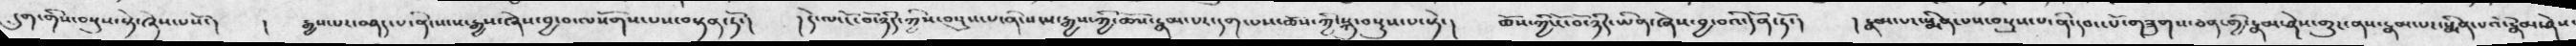དྲུག་གིས་བསྡུས་ཏེ་ཞེས་པསོ།  །  རྒྱས་པར་བཤད་པ་ནི་སངས་རྒྱས་ཞེས་བྱ་བ་ལསོགས་པས་བསྟན་ཏོ་།  །དེ་ལ་ངོ་བོ་ཉིད་ཀྱིས་བསྡུས་པ་ནི་སངས་རྒྱས་ཀྱི་ཆོས་རྣམ་པར་དག་པས་ཆོས་ཀྱི་སྐུ་བསྡུས་པ་སྟེ་།  ཆོས་ཀྱི་ངོ་བོ་ཉིད་ཡིན་ཞེས་བྱ་བའི་དོན་ཏོ་།   །རྣམ་པར་སྨིན་པས་བསྡུས་པ་ནི་དབང་པོ་གཟུགས་ཅན་གྱི་རྣམ་ཤེས་གྱུར་ནས་རྣམ་པར་སྨིན་པའི་རྣམ་ཤེས་
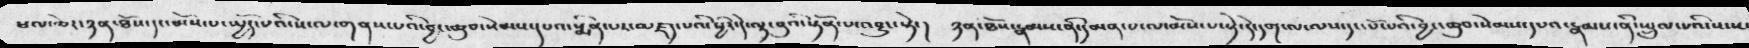ཕལ་ཆེར་ཉན་ཐོས་དང་མོས་པ་སྤྱོད་པའི་ས་ལ་གནས་པའི་བྱང་ཆུབ་སེམས་དཔའ་སྨིན་པར་མཛད་པའི་ཕྱིར་དེ་ལྟ་བུའི་སྟོན་པ་འབྱུང་སྟེ་།  ཉན་ཐོས་རྣམས་ནི་དམན་པ་ལ་མོས་པ་སྟེ་དེ་དག་ལ་ལས་དང་པོ་པའི་བྱང་ཆུབ་སེམས་དཔའ་རྣམས་ནི་སྤྲུལ་པའི་སངས་
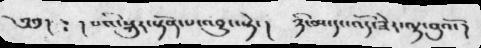༄༅།   ༴ ། པའི་སྐུར་སྟོན་པ་འབྱུང་སྟེ་།  ཉི་མ་དང་འོད་ཟེར་ལྟ་བུའོ་།
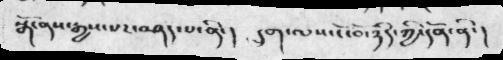སྒོ་ནས་རྒྱས་པར་བཤད་པ་ནི་།  དྲུག་ལས་ངོ་བོ་ཉིད་ཀྱི་དོན་ནི་།
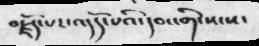བརྗོད་པར་འདོད་པའི་དབང་གི་སངས་
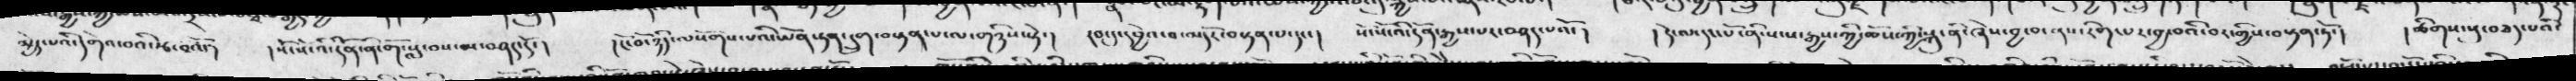མྱེད་པའི་དགེའ་བའི་རྩ་བའོ་།    ། སོ་སོ་འི་དོན་ནི་གོ་སླ་བས་མ་བཤད་དོ་།   ། ངོ་བོ་ཉིད་ལསོགས་པའི་ཡོན་ཏན་དྲུག་བསྟན་པ་ལ་གཉིས་སྟེ་།   རབ་དུ་དབྱེའ་བ་མདོར་བསྟན་པ་དང་།  སོ་སོ་འི་དོན་རྒྱས་པར་བཤད་པའོ་།   ། དེ་ལ་དང་པོ་ནི་སངས་རྒྱས་ཀྱི་ཆོས་ཀྱི་སྐུ་ནི་ཞེས་བྱ་བ་ནས་རིག་པར་གྱིས་བསྟན་ཏོ་།   །ཚིགས་སུ་བཅད་པའི་
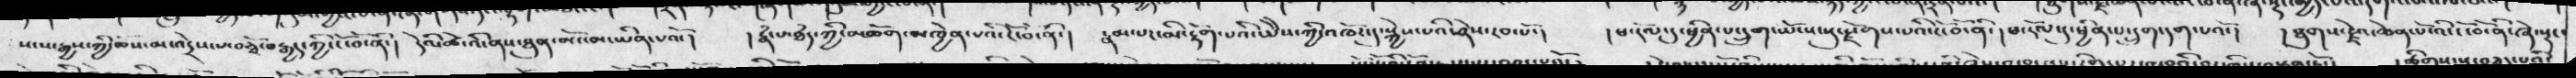སངས་རྒྱས་ཀྱི་ཆོས་མ་འདྲེས་པ་བཅྭོ་བརྒྱད་ཀྱི་ངོ་བོ་ནི་།   དེའི་ཚེ་འི་ནས་ཐུན་མོང་མ་ཡིན་པའོ་།   ། རྣཾ་པ་ཐཾད་ཀྱི་མཆོག་མཁྱེན་པའི་ངོ་བོ་ནི་།  རྣམ་པར་མི་རྟོག་པའི་ཡེེས་ཀྱི་འཁོར་དུ་སྐྱེས་པའི་ཤེས་རབ་པོ་།   ། ཕ་རོལ་དུ་ཕྱིན་པ་དྲུག་ཡོངས་སུ་རྫོགས་པའི་ངོ་བོ་ནི་།    ཕ་རོལ་དུ་ཕྱིན་པ་དྲུག་དག་པའོ་།   ། ཐུགས་རྗེའ་ཆེན་པོ་འི་ངོ་བོ་ནི་ཞེ་སྡང་
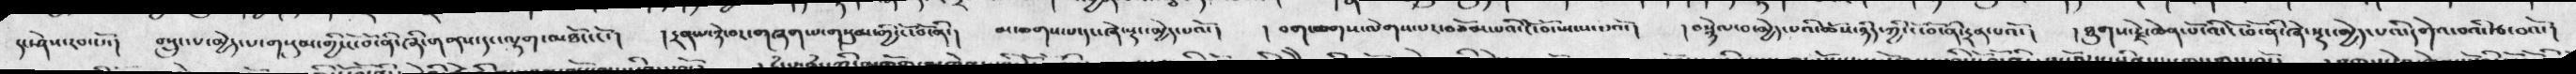དང་ཤེས་རབ་པོ་།   བསྲུང་པ་མྱེད་པ་གསུམ་གྱི་ངོ་བོ་ནི་ཞི་གནས་དང་ལྷག་མཐོང་ངོ་།    །དྲན་པ་ཉེ་བར་གཞག་པ་གསུམ་གྱི་ངོ་བོ་ནི་།   མ་ཆགས་པ་དང་ཞེ་སྡང་མྱེད་པའོ་།   ། བག་ཆགས་ལེགས་པར་བཅོམ་པའི་ངོ་བོ་སྤངས་པའོ་།   ། བསྙེལ་བ་མྱེད་པའི་ཆོས་ཉིད་ཀྱི་ངོ་བོ་ནི་དྲན་པའོ་།  ། ཐུགས་རྗེ་ཆེན་པོའི་ངོ་བོ་ནི་ཞེ་སྡང་མྱེད་པའི་དགེའ་བའི་རྩ་བའོ་།
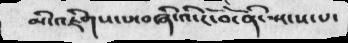མི་འཇིགས་པ་བཞི་འི་ངོ་བོ་ནི་སྤངས་པ་
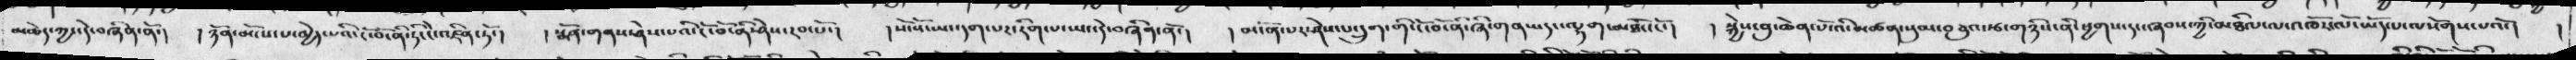མཆེད་ཀྱང་དེ་བཞིན་ནོ་།  །ཉོན་མོངས་པ་མྱེད་པའི་ངོ་བོ་ནི་ཏི་ངེ་འཛིན་ཏོ་།  །སྨོན་གནས་ཤེས་པའི་ངོ་བོ་ནི་ཤེས་རབ་པོ་།  །སོ་སོ་ཡང་དག་པར་རིག་པ་ཡང་དེ་བཞིན་ནོ་། །མངོན་པར་ཤེས་པ་དྲུག་གི་ངོ་བོ་ནི་གཞི་གནས་དང་ལྷག་མཐོང་ངོ་།  །སྐྱེས་བུ་ཆེན་པོ་འི་མཚན་སུམ་བཅུ་རྩ་གཉིས་ནི་ཕྱགས་དང་ཞབས་ཀྱི་མཐིལ་ལ་འཁོར་ལོ་ཡོད་པ་ལ་སོགས་པའོ་།  །
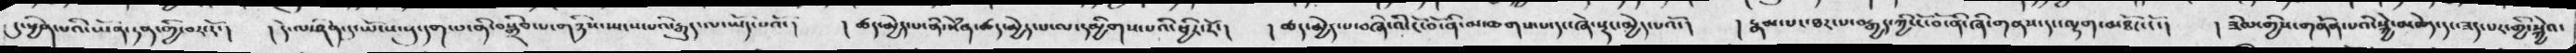དུ་ཕྱིན་པའི་ཡོན་ཏན་གྱི་བར་རོ་།  །དེ་ལ་ཤིན་དུ་ཡོངས་སུ་དག་པ་ནི་བསྒྲིབ་པ་གཉིས་སྤངས་པའི་རྒྱུད་ལ་ཡོད་པའོ་།  །ཚད་མྱེད་པ་ནི་སེཾན་ཚད་མྱེད་པ་ལ་དམྱིགས་པའི་ཕྱིར་རོ་།  །ཆད་མྱེད་པ་བཞི་འི་ངོ་བོ་བི་མ་ཆགས་པ་དང་ཞེ་སྡང་མྱེད་པའོ་།  །རྣམ་པར་ཐར་པ་བརྒྱད་ཀྱི་ངོ་བོ་ནི་ཞི་གནས་དང་ལྷག་མཐོང་ངོ་།  །ཟིལ་གྱིས་གནོན་པའི་སྐྱེ་མཆེད་དང་ཟད་པར་གྱི་སྐྱེའ་
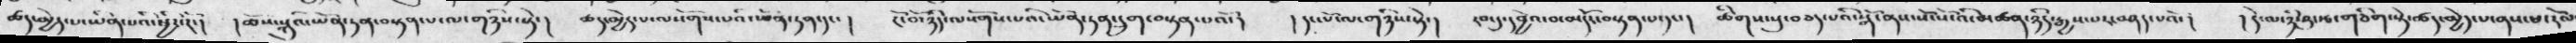ཚད་མྱེད་པ་ཡིན་པའི་ཕྱིར་རོ་།   །ཆོས་སྐུའི་ཡོན་ཏན་བསྟན་པ་ལ་གཉིས་སྟེ་།   ཚད་མྱེད་པ་ལསོགས་པའི་ཡོན་ཏན་དང་།   ངོ་བོ་ཉིད་ལསོགས་པའི་ཡོན་ཏན་དྲུག་བསྟན་པའོ་།  ། དང་པོ་ལ་གཉིས་སྟེ་།  རབ་དུ་དབྱེའ་བ་མདོར་བསྟན་པ་དང་།  ཚིགས་སུ་བཅད་པའི་སྒོ་ནས་སོ་སོ་འི་མཚན་ཉིད་རྒྱས་པར་བཤད་པའོ་།  །དེ་ལ་ཉི་ཤུ་རྩ་གཅིག་སྟེ་ཚད་མྱེད་པ་ནས་ཕ་རོལ
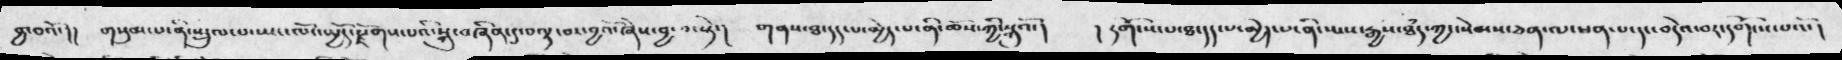ཐ་བའོ་།།  གསུམ་པ་ནི་སྤྲུལ་པ་ཡང་ལོང་སྤྱོད་རྫོགས་པའི་སྐུ་བཞིན་དུ་བལྟ་བར་བྱ་བ་སྟེ་།  གནས་ཐ་དད་པ་མྱེད་པ་ནི་ཆོས་ཀྱི་སྐུའོ་།  ། དགོངས་པ་ཐ་དད་པ་མྱེད་པ་ནི་སངས་རྒྱས་ཐཾད་ཀྱང་སེམས་ཅན་ལ་ཕན་པ་དང་བདེའ་བར་དགོངས་པའོ་།
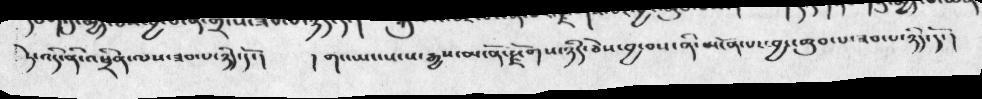ཏེ་འདི་ནི་འཕྲིན་ལས་ཟབ་པ་ཉིད་དོ་།   ། གང་ཡང་སངས་རྒྱས་མངོན་རྫོགས་ཉིད་ཅེས་བྱ་བས་ནི་མངོན་པར་བྱང་ཆུབ་པ་ཟབ་པ་ཉིད་དོ་།
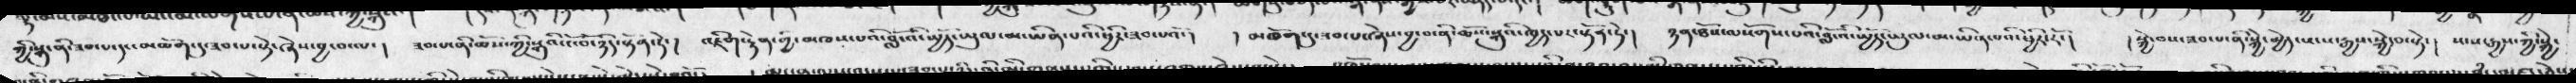ཀྱི་སྐུ་ནི་ཟབ་པ་དང་མཆོག་དུ་ཟབ་པ་སྟེ་ཞེས་བྱ་་བ་ལ་།   ཟབ་པ་ནི་ཆོས་ཀྱི་སྐུའི་ངོ་བོ་ཉིད་སྟོན་ཏེ་།   འཇིག་རྟེན་གྱི་མཁས་པའི་བློ་འི་སྤྱོད་ཡུལ་མ་ཡིན་པའི་ཕྱིར་ཟབ་པའོ་།   ། མཆོག་དུ་ཟབ་པ་ཞེས་བྱ་བ་ནི་ཆོས་སྐུའི་ཁྱད་པར་སྟོན་ཏེ་།   ཉན་ཐོས་ལསོགས་པའི་བློ་འི་སྤྱོད་ཡུལ་མ་ཡིན་པའི་ཕྱིར་རོ་།   །སྐྱེ་བས་ཟབ་པ་ནི་སྐྱེ་མྱེད་སངས་རྒྱས་སྐྱེ་བ་སྟེ་།  སངས་རྒྱས་ཀྱི་སྐྱེ་
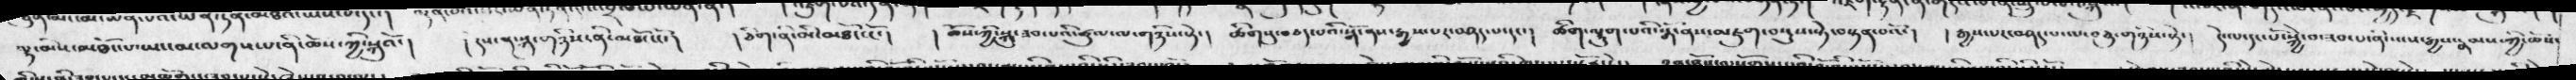ལྷ་མིས་མཐོང་པ་ཡང་མ་ལགས་པ་ནི་ཆོས་ཀྱི་སྐུའོ་།   ། དེས་ན་སྐུ་གཉིས་ནི་མཐོང་ངོ་།   །ཅིག་ནི་མི་མཐོང་ངོ་།   །ཆོས་ཀྱི་སྐུ་ཟབ་པའི་ཚལ་ལ་གཉིས་སྟེ་།    ཚིགསུ་བཅད་པའི་སྒོ་ནས་རྒྱས་པར་བཤད་པ་དང་།   ཚིག་ལྷུག་པའི་སྒོ་ནས་མཇུག་བསྡུས་སྟེ་བསྟན་པའོ་།   ། རྒྱས་པར་བཤད་པ་ལ་བཅུ་གཉིས་སྟེ་།   དེ་ལ་དང་པོ་སྐྱེ་བ་ཟབ་པ་ན་སངས་རྒྱས་རྣམས་ཀྱི་ཆོས་
